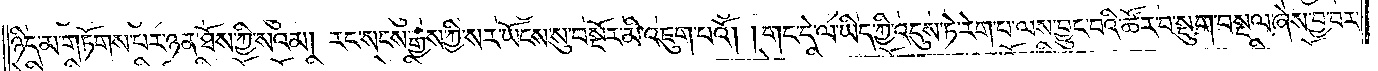ཉིད་མ་གཏོགས་པར་ཉན་ཐོས་ཀྱི་སའམ། རང་སངས་རྒྱས་ཀྱི་སར་ཡོངས་སུ་བསྔོར་མི་འཇུག་པའོ། །གང་དེ་ལ་ཡིད་ཀྱི་འདུས་ཏེ་རེག་པ་ལས་བྱུང་བའི་ཚོར་བ་སྡུག་བསྔལ་ཞེས་བྱ་བར་
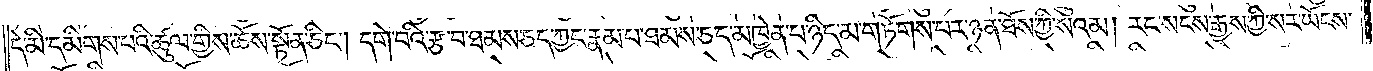དེ་མི་དམིགས་པའི་ཚུལ་གྱིས་ཆོས་སྟོན་ཅིང༌། དགེ་བའི་རྩ་བ་ཐམས་ཅད་ཀྱང་རྣམ་པ་ཐམས་ཅད་མཁྱེན་པ་ཉིད་མ་གཏོགས་པར་ཉན་ཐོས་ཀྱི་སའམ། རང་སངས་རྒྱས་ཀྱི་སར་ཡོངས་
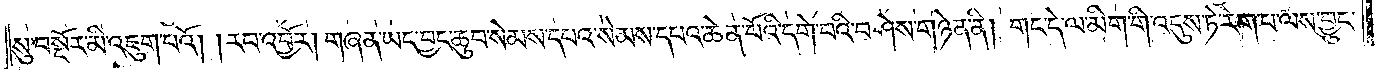སུ་བསྔོར་མི་འཇུག་པའོ། །རབ་འབྱོར། གཞན་ཡང་བྱང་ཆུབ་སེམས་དཔའ་སེམས་དཔའ་ཆེན་པོའི་དགེ་བའི་བཤེས་གཉེན་ནི། གང་དེ་ལ་མིག་གི་འདུས་ཏེ་རེག་པ་ལས་བྱུང་
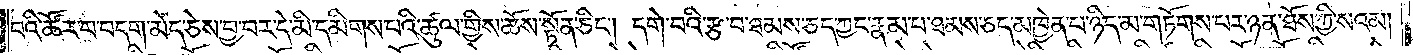བའི་ཚོར་བ་བདག་མེད་ཅེས་བྱ་བར་དེ་མི་དམིགས་པའི་ཚུལ་གྱིས་ཆོས་སྟོན་ཅིང༌། དགེ་བའི་རྩ་བ་ཐམས་ཅད་ཀྱང་རྣམ་པ་ཐམས་ཅད་མཁྱེན་པ་ཉིད་མ་གཏོགས་པར་ཉན་ཐོས་ཀྱི་སའམ།
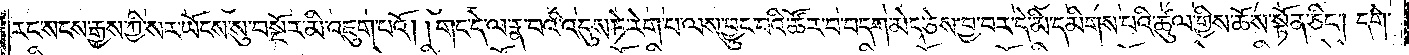རང་སངས་རྒྱས་ཀྱི་སར་ཡོངས་སུ་བསྔོར་མི་འཇུག་པའོ། །གང་དེ་ལ་རྣ་བའི་འདུས་ཏེ་རེག་པ་ལས་བྱུང་བའི་ཚོར་བ་བདག་མེད་ཅེས་བྱ་བར་དེ་མི་དམིགས་པའི་ཚུལ་གྱིས་ཆོས་སྟོན་ཅིང༌། དགེ་
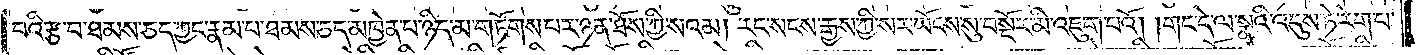བའི་རྩ་བ་ཐམས་ཅད་ཀྱང་རྣམ་པ་ཐམས་ཅད་མཁྱེན་པ་ཉིད་མ་གཏོགས་པར་ཉན་ཐོས་ཀྱི་སའམ། རང་སངས་རྒྱས་ཀྱི་སར་ཡོངས་སུ་བསྔོར་མི་འཇུག་པའོ། །གང་དེ་ལ་སྣའི་འདུས་ཏེ་རེག་པ་
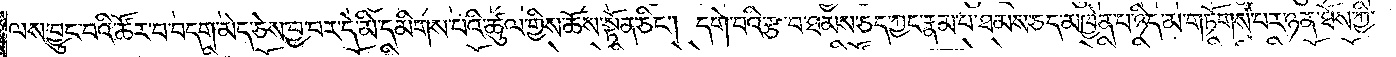ལས་བྱུང་བའི་ཚོར་བ་བདག་མེད་ཅེས་བྱ་བར་དེ་མི་དམིགས་པའི་ཚུལ་གྱིས་ཆོས་སྟོན་ཅིང༌། དགེ་བའི་རྩ་བ་ཐམས་ཅད་ཀྱང་རྣམ་པ་ཐམས་ཅད་མཁྱེན་པ་ཉིད་མ་གཏོགས་པར་ཉན་ཐོས་ཀྱི་
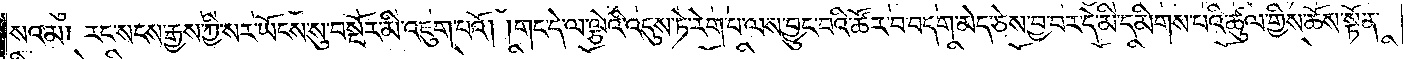སའམ། རང་སངས་རྒྱས་ཀྱི་སར་ཡོངས་སུ་བསྔོར་མི་འཇུག་པའོ། །གང་དེ་ལ་ལྕེའི་འདུས་ཏེ་རེག་པ་ལས་བྱུང་བའི་ཚོར་བ་བདག་མེད་ཅེས་བྱ་བར་དེ་མི་དམིགས་པའི་ཚུལ་གྱིས་ཆོས་སྟོན་
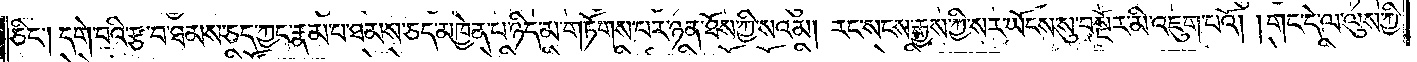ཅིང༌། དགེ་བའི་རྩ་བ་ཐམས་ཅད་ཀྱང་རྣམ་པ་ཐམས་ཅད་མཁྱེན་པ་ཉིད་མ་གཏོགས་པར་ཉན་ཐོས་ཀྱི་སའམ། རང་སངས་རྒྱས་ཀྱི་སར་ཡོངས་སུ་བསྔོར་མི་འཇུག་པའོ། །གང་དེ་ལ་ལུས་ཀྱི་
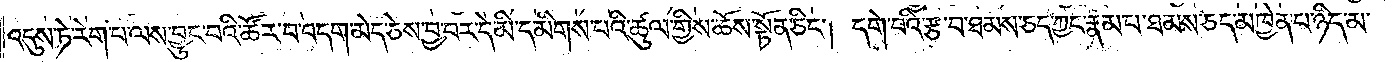འདུས་ཏེ་རེག་པ་ལས་བྱུང་བའི་ཚོར་བ་བདག་མེད་ཅེས་བྱ་བར་དེ་མི་དམིགས་པའི་ཚུལ་གྱིས་ཆོས་སྟོན་ཅིང༌། དགེ་བའི་རྩ་བ་ཐམས་ཅད་ཀྱང་རྣམ་པ་ཐམས་ཅད་མཁྱེན་པ་ཉིད་མ་
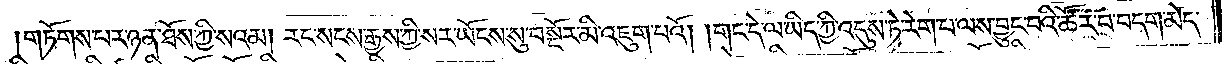གཏོགས་པར་ཉན་ཐོས་ཀྱི་སའམ། རང་སངས་རྒྱས་ཀྱི་སར་ཡོངས་སུ་བསྔོར་མི་འཇུག་པའོ། །གང་དེ་ལ་ཡིད་ཀྱི་འདུས་ཏེ་རེག་པ་ལས་བྱུང་བའི་ཚོར་བ་བདག་མེད་
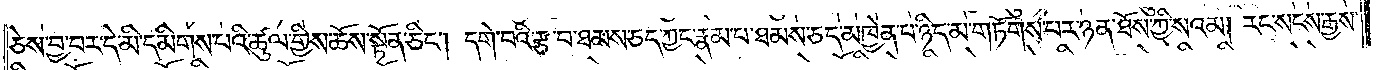ཅེས་བྱ་བར་དེ་མི་དམིགས་པའི་ཚུལ་གྱིས་ཆོས་སྟོན་ཅིང༌། དགེ་བའི་རྩ་བ་ཐམས་ཅད་ཀྱང་རྣམ་པ་ཐམས་ཅད་མཁྱེན་པ་ཉིད་མ་གཏོགས་པར་ཉན་ཐོས་ཀྱི་སའམ། རང་སངས་རྒྱས་
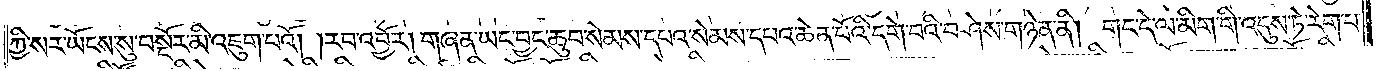ཀྱི་སར་ཡོངས་སུ་བསྔོར་མི་འཇུག་པའོ། །རབ་འབྱོར། གཞན་ཡང་བྱང་ཆུབ་སེམས་དཔའ་སེམས་དཔའ་ཆེན་པོའི་དགེ་བའི་བཤེས་གཉེན་ནི། གང་དེ་ལ་མིག་གི་འདུས་ཏེ་རེག་པ་
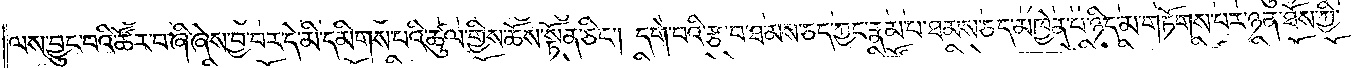ལས་བྱུང་བའི་ཚོར་བ་ཞི་ཞེས་བྱ་བར་དེ་མི་དམིགས་པའི་ཚུལ་གྱིས་ཆོས་སྟོན་ཅིང༌། དགེ་བའི་རྩ་བ་ཐམས་ཅད་ཀྱང་རྣམ་པ་ཐམས་ཅད་མཁྱེན་པ་ཉིད་མ་གཏོགས་པར་ཉན་ཐོས་ཀྱི་
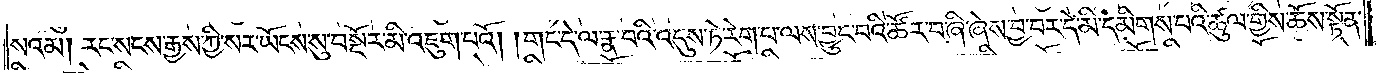སའམ། རང་སངས་རྒྱས་ཀྱི་སར་ཡོངས་སུ་བསྔོར་མི་འཇུག་པའོ། །གང་དེ་ལ་རྣ་བའི་འདུས་ཏེ་རེག་པ་ལས་བྱུང་བའི་ཚོར་བ་ཞི་ཞེས་བྱ་བར་དེ་མི་དམིགས་པའི་ཚུལ་གྱིས་ཆོས་སྟོན་
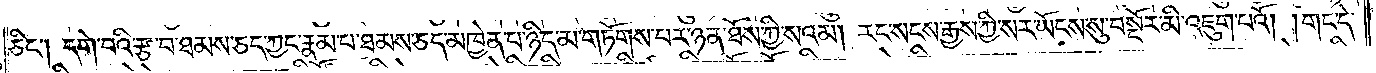ཅིང༌། དགེ་བའི་རྩ་བ་ཐམས་ཅད་ཀྱང་རྣམ་པ་ཐམས་ཅད་མཁྱེན་པ་ཉིད་མ་གཏོགས་པར་ཉན་ཐོས་ཀྱི་སའམ། རང་སངས་རྒྱས་ཀྱི་སར་ཡོངས་སུ་བསྔོར་མི་འཇུག་པའོ། །གང་དེ་
